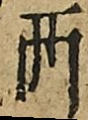西
